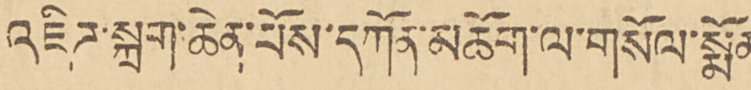འཇིཊ་སྐྲག་ཆེན་པོས་དཀོན་མཆོག་ལ་གསོལ་སྨོན་
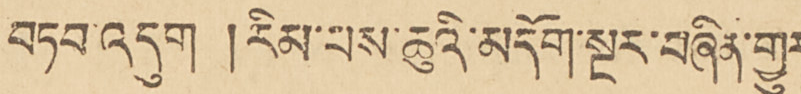བཏབ་འདུག །རིམ་པས་ཆུའི་མདོག་སྔར་བཞིན་གྱུར
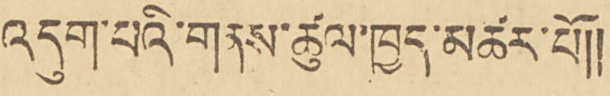འདུག་པའི་གནས་ཚུལ་ཁྱད་མཚར་པོ།།
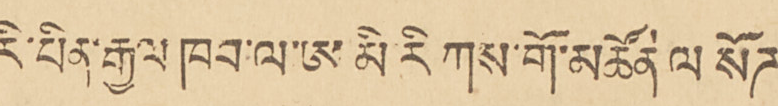རི་པིན་རྒྱལ ཁབ་ལ་ཨ མི་རི ཀས་གོ་མཚོན ལ སོཊ་
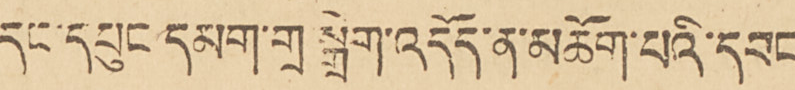དང་དཔུང དམག་གྲ སྒྲིག་འདོད་ན་མཆོག་པའི་དབང་
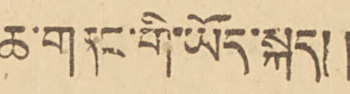ཆ་གནང་གི་ཡོད་སྐད།།
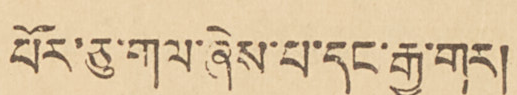པོར་ཅུ་གལ་ཞེས་པ་དང་རྒྱ་གར།
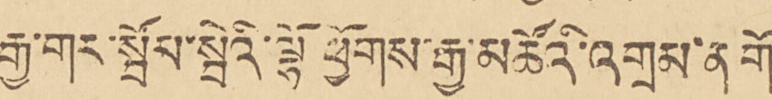རྒྱ་གར་སྦོམ་སྦེའི་ལྷོ ཕྱོགས་རྒྱ་མཚོའི་འགྲམ་ན གོ་
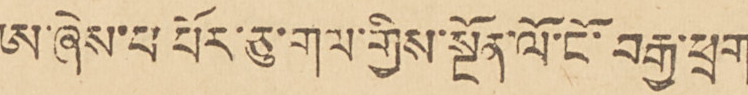ཨ་ ཞེས་པ པོར་ཅུ་གལ་གྱིས་སྔོན་ལོ་ངོ་བརྒྱ་ཕྲག་
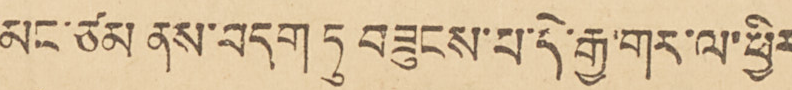མང་ཙམ་ནས་བདག་ཏུ བཟུངས་པ་དེ་རྒྱ་གར་ལ་ཕྱིར་
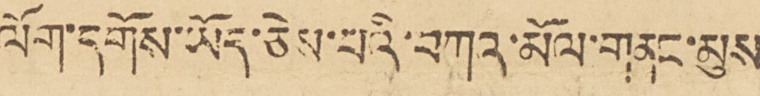ལོག་དགོས་ཡོད་ཅེས་པའི་བཀའ་མོལ་གནང་མུས་
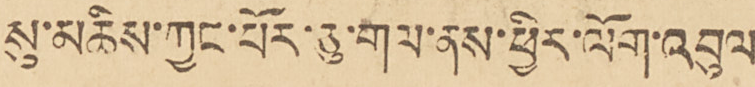སུ་མཆིས་ཀྱང་པོར་ཅུ་གལ་ནས་ཕྱིར་ལོག་འབུལ་
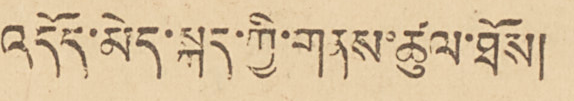འདོད་མེད་སྐད་ཀྱི་གནས་ཚུལ་ཐོས། །
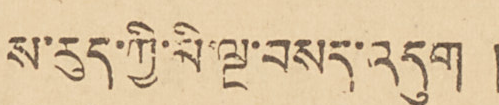ས་རུད་ཀྱི་མི་ལྔ་བསད་འདུག །
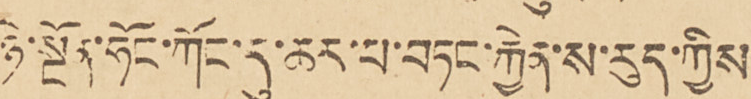ཉེ་སྔོན་ཧོང་ཀོང་དུ་ཆར་པ་བཏང་རྐྱེན་ས་རུད་ཀྱིས་
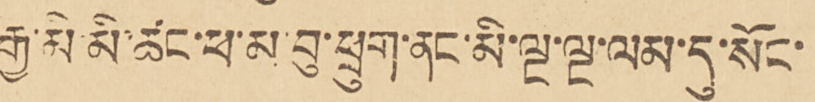རྒྱ་མི་མི་ཚང་ཕ་མ་བུ་ཕྲུག་ནང་མི་ལྔ་ལྔ་ལམ་དུ་སོང་
